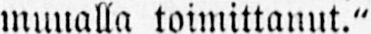muualla toimittanut."
